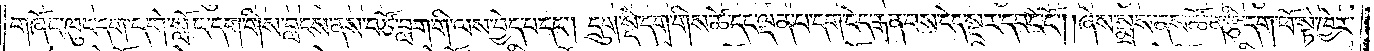གཞོང་ཁུང་དག་དགེ་སློང་དག་གིས་བླངས་ནས་བཙོ་བླག་གི་ལས་བྱེད་པ་དང༌། དྲུག་སྡེ་དག་གིས་ཚེ་དང་ལྡན་པ་དག་ངེད་རྒན་པས་ངེད་སྔར་དབང་ངོ༌། །ཞེས་སྨྲས་ནས་ཚོན་རྩི་དག་ཕོ་སྟེ་ཁྱེར་
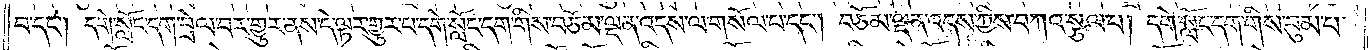བ་དང༌། དགེ་སློང་དག་བྲེལ་བར་གྱུར་ནས་དེ་ལྟར་གྱུར་པ་དགེ་སློང་དག་གིས་བཅོམ་ལྡན་འདས་ལ་གསོལ་པ་དང༌། བཅོམ་ལྡན་འདས་ཀྱིས་བཀའ་སྩལ་པ། དགེ་སློང་དག་གིས་བུམ་པ་
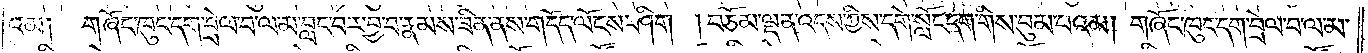འམ༑ གཞོང་ཁུང་དག་བྲེལ་བ་ལ་མ་བླང་བར་བྱ་བ་རྣམས་ཟིན་ནས་གདོད་ལོངས་ཤིག །བཅོམ་ལྡན་འདས་ཀྱིས་དགེ་སློང་དག་གིས་བུམ་པའམ། གཞོང་ཁུང་དག་བྲེལ་བ་ལ་མ་
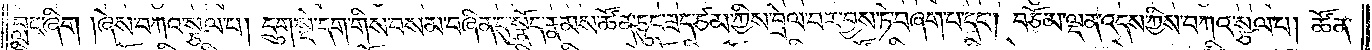བླང་ཞིག །ཞེས་བཀའ་སྩལ་པ། དྲུག་སྡེ་དག་གིས་བསམ་བཞིན་དུ་སྣོད་རྣམས་ཚོན་ཅུང་ཟད་ཙམ་གྱིས་བྲེལ་བར་བྱས་ཏེ་བཞག་པ་དང༌། བཅོམ་ལྡན་འདས་ཀྱིས་བཀའ་སྩལ་པ། ཚོན་
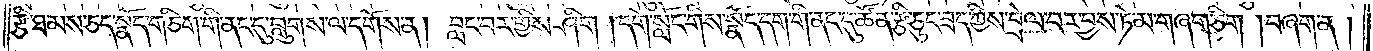རྩི་ཐམས་ཅད་སྣོད་གཅིག་གི་ནང་དུ་བླུགས་ལ་དགོས་ན། བླང་བར་གྱིས་ཤིག །དགེ་སློང་གིས་སྣོད་དག་གི་ནང་དུ་ཚོན་རྩི་ཅུང་ཟད་ཀྱིས་བྲེལ་བར་བྱས་ཏེ་མ་གཞག་ཅིག །བཞག་ན།
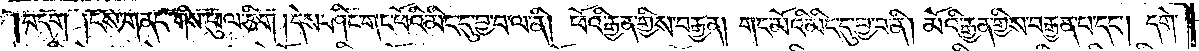བདག །ངས་གནང་གིས་ཕུལ་ཅིག །དེས་ཤིང་གང་ཕོའི་མིང་དུ་བྱ་བ་ལ་ནི། ཕོའི་རྒྱན་གྱིས་བརྒྱན། གང་མོའི་མིང་དུ་བྱ་བ་ནི། མོའི་རྒྱན་གྱིས་བརྒྱན་པ་དང༌། དགེ་
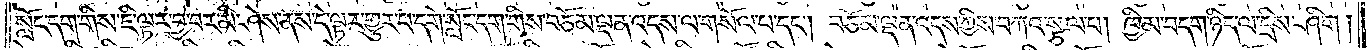སློང་དག་གིས་ཇི་ལྟར་བྱ་བར་མི་ཤེས་ནས་དེ་ལྟར་གྱུར་པ་དགེ་སློང་དག་གིས་བཅོམ་ལྡན་འདས་ལ་གསོལ་པ་དང༌། བཅོམ་ལྡན་འདས་ཀྱིས་བཀའ་སྩལ་པ། ཁྱིམ་བདག་ཉིད་ལ་དྲིས་ཤིག །
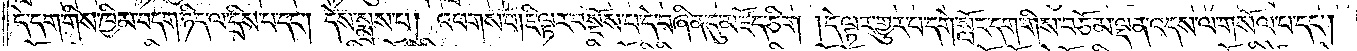དེ་དག་གིས་ཁྱིམ་བདག་ཉིད་ལ་དྲིས་པ་དང༌། དེས་སྨྲས་པ། འཕགས་པ། ཇི་ལྟར་བསྔོས་པ་དེ་བཞིན་དུ་མཛོད་ཅིག །དེ་ལྟར་གྱུར་པ་དགེ་སློང་དག་གིས་བཅོམ་ལྡན་འདས་ལ་གསོལ་པ་དང༌།
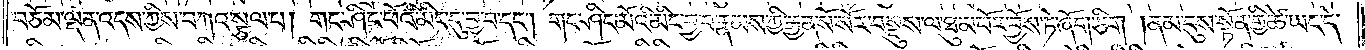བཅོམ་ལྡན་འདས་ཀྱིས་བཀའ་སྩལ་པ། གང་ཤིང་ཕོའི་མིང་དུ་བྱ་བ་དང༌། གང་ཤིང་མོའི་མིང་བྱ་བ་རྣམས་ཀྱི་རྒྱན་སོ་སོར་བསྡུས་ལ་ཐུམ་པོར་བྱོས་ཏེ་ཞོག་ཅིག །ནམ་དུས་སྟོན་གྱི་ཚེ་ཡང་དེ་
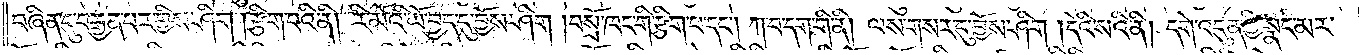བཞིན་དུ་བརྒྱན་པར་གྱིས་ཤིག །རྩིག་པའི་ནི། རི་མོའི་ཡོ་བྱད་དུ་བྱོས་ཤིག །བསྲོ་ཁང་གི་རྩིག་པ་དང༌། ཀ་བ་དག་གི་ནི། ལས་གསར་དུ་བྱོས་ཤིག །དེའི་སའི་ནི། དགེ་འདུན་གྱི་སྣང་མར་
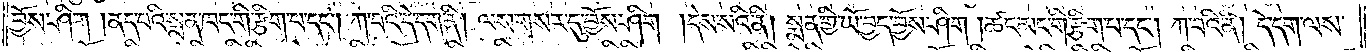བྱོས་ཤིག །ནད་པའི་སྨན་ཁང་གི་རྩིག་པ་དང༌། ཀ་བའི་དེ་དག་ནི། ལས་གསར་དུ་བྱོས་ཤིག །དེས་སའི་ནི། སྨན་གྱི་ཡོ་བྱད་བྱོས་ཤིག །ཚང་མང་གི་རྩིག་པ་དང༌། ཀ་བའི་ནི། དེ་དག་ལས་
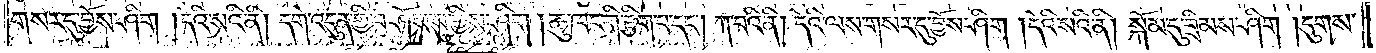གསར་དུ་བྱོས་ཤིག །དེའི་སའི་ནི། དགེ་འདུན་གྱི་བཤོས་སུ་གྱིས་ཤིག །ཆུ་ཁང་གི་རྩིག་པ་དང༌། ཀ་བའི་ནི། དེའི་ལས་གསར་དུ་བྱོས་ཤིག །དེའི་སའི་ནི། སྐོམ་དུ་བྲིམས་ཤིག །དུགས་
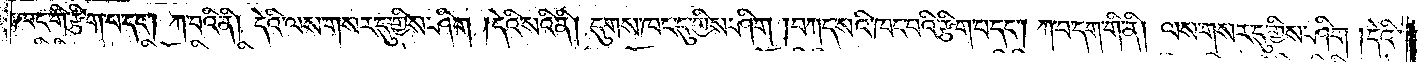ཁང་གི་རྩིག་པ་དང༌། ཀ་བའི་ནི། དེའི་ལས་གསར་དུ་གྱིས་ཤིག །དེའི་སའི་ནི། དུགས་ཁང་དུ་གྱིས་ཤིག །བཀད་སའི་ཁང་བའི་རྩིག་པ་དང༌། ཀ་བ་དག་གི་ནི། ལས་གསར་དུ་གྱིས་ཤིག །དེའི་
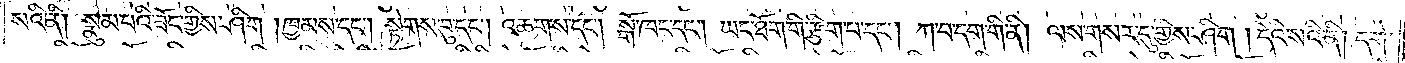སའི་ནི། སྣུམ་པའི་ཟོང་གྱིས་ཤིག །ཁྱམས་དང༌། སྟེགས་བུ་དང༌། འཆགས་དང༌། སྒོ་ཁང་དང༌། ཡང་ཐོག་གི་རྩིག་པ་དང༌། ཀ་བ་དག་གི་ནི། ལས་གསར་དུ་གྱིས་ཤིག །དེའི་སའི་ནི། དགེ་
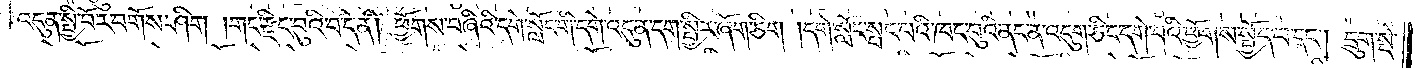འདུན་སྤྱི་བོར་བགོས་ཤིག །གང་རྫིང་བུའི་བདེ་ནི། ཕྱོགས་བཞིའི་དགེ་སློང་གི་དགེ་འདུན་དག་སྤྱིར་ཞོག་ཅིག །དགེ་སློང་སྤང་བའི་ཁང་བུའི་ནང་ན་འདུག་ཅིང་དགེ་བའི་ཕྱོགས་སྤྱོད་པ་དང༌། དྲུག་སྡེ་
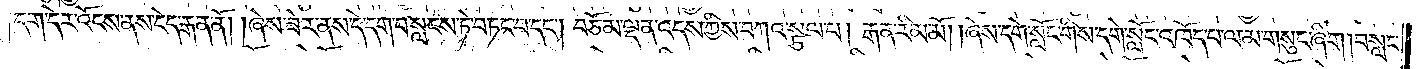དག་དེར་འོངས་ནས་ངེད་རྒན་ནོ། །ཞེས་ཟེར་ནས་དེ་དག་བསླངས་ཏེ་བཏང་བ་དང༌། བཅོམ་ལྡན་འདས་ཀྱིས་བཀའ་སྩལ་པ། རྒན་རིམ་མོ། །ཞེས་དགེ་སློང་གིས་དགེ་སློང་འཁོད་པ་ལ་མ་གསུང་ཞིག །བསླང་
